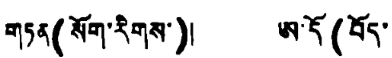གཏན(སོག་རིགས་)། ཨ་དོ(བོད་
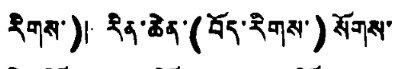རིགས་)། རིན་ཆེན་(བོད་རིགས་)སོགས་
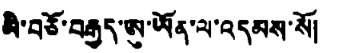མི་བཅོ་བརྒྱད་ཨུ་ཡོན་ལ་འདམས་སོ།
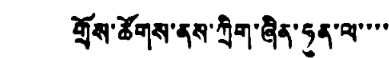གྲོས་ཚོགས་ནས་ཀྲིག་ཞིན་ཧུན་ལ་་་་
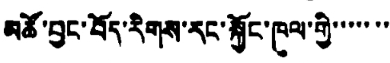མཚོ་བྱང་བོད་རིགས་རང་སྐྱོང་ཁུལ་གྱི་་་་་་་
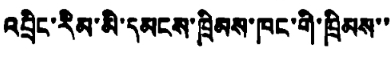འབྲིང་རིམ་མི་དམངས་ཁྲིམས་ཁང་གི་ཁྲིམས་་
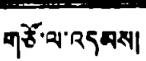གཙོ་ལ་འདམས།
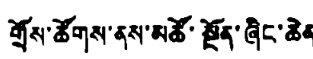གྲོས་ཚོགས་ནས་མཚོ་སྔོན་ཞིང་ཆེན
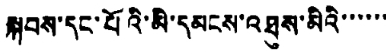སྐབས་དང་པོའི་མི་དམངས་འཐུས་མིའི་་་་་་
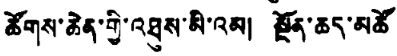ཚོགས་ཆེན་གྱི་འཐུས་མི་འམ། སྔོན་ཆད་མཚོ
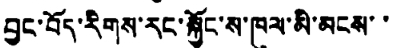བྱང་བོད་རིགས་རང་སྐྱོང་ས་ཁུལ་མི་མངས་་
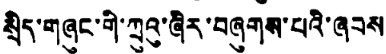སྲིད་གཞུང་གི་ཀྲུའུ་ཞིར་བཞུགས་པའི་ཞབས
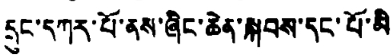དྲུང་དཀར་པོ་ནས་ཞིང་ཆེན་སྐབས་དང་པོ་མི
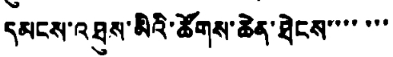དམངས་འཐུས་མིའི་ཚོགས་ཆེན་ཐེངས་་་་་་་
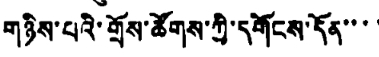གཉིས་པའི་གྲོས་ཚོགས་ཀྱི་དགོངས་དོན་་་་
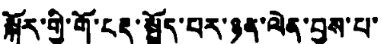སྐོར་གྱི་གོ་བརྡ་སྤྲོད་པར་ཉན་ལེན་བྱས་པ་་
